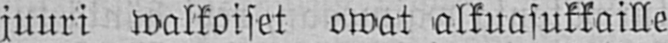juuri walkoiset owat alkuasukkaille
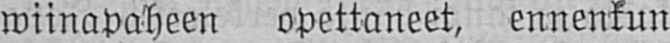wiinapaheen opettaneet, ennenkun
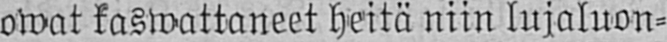owat kaswattaneet heitä niin lujaluon-
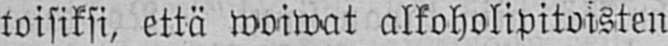toisiksi, että woiwat alkoholipitoisten
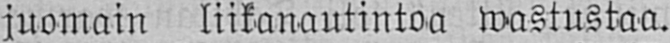juomain liikanautintoa wastustaa.
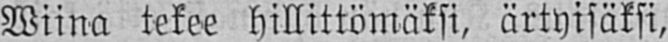Wiina tekee hillittömäksi, ärtyisäksi,
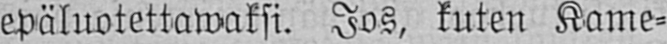epäluotettawaksi. Jos, kuten Kame-
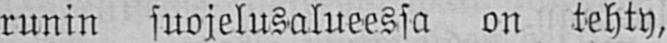runin suojelusalueessa on tehty,
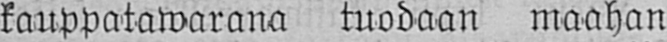kauppakawarana tuodaan maahan
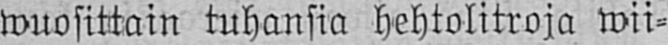wuosittain tuhansia hehtolitroja wii-
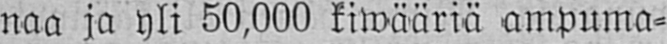naa ja yli 50,000 kiwääriä ampuma-
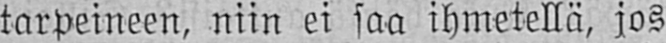tarpeineen, niin ei saa ihmetellä, jos
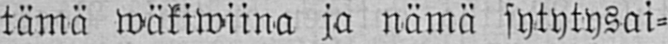tämä wäkiwiina ja nämä sytytysai-
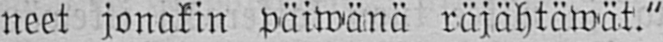neet jonakin päiwänä räjähtäwät."
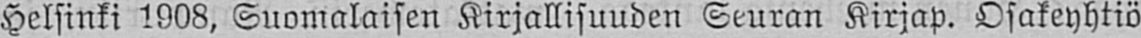Helsinki 1908, Suomalaisen Kirjallisuuden Seuran Kirjap. Osakeyhtiö.
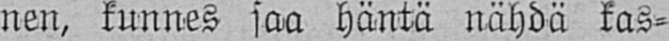nen, kunnes saa häntä nähdä kas-
